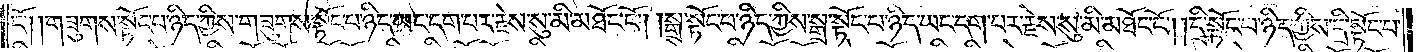ངོ༌། །གཟུགས་སྟོང་པ་ཉིད་ཀྱིས་གཟུགས་སྟོང་པ་ཉིད་ཡང་དག་པར་རྗེས་སུ་མི་མཐོང་ངོ༌། །སྒྲ་སྟོང་པ་ཉིད་ཀྱིས་སྒྲ་སྟོང་པ་ཉིད་ཡང་དག་པར་རྗེས་སུ་མི་མཐོང་ངོ༌། །དྲི་སྟོང་པ་ཉིད་ཀྱིས་དྲི་སྟོང་པ་
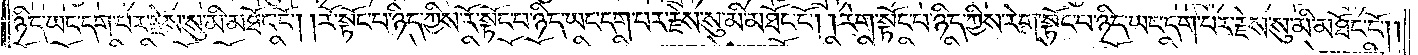ཉིད་ཡང་དག་པར་རྗེས་སུ་མི་མཐོང་ངོ༌། །རོ་སྟོང་པ་ཉིད་ཀྱིས་རོ་སྟོང་པ་ཉིད་ཡང་དག་པར་རྗེས་སུ་མི་མཐོང་ངོ༌། །རེག་སྟོང་པ་ཉིད་ཀྱིས་རེག་སྟོང་པ་ཉིད་ཡང་དག་པར་རྗེས་སུ་མི་མཐོང་ངོ༌། །
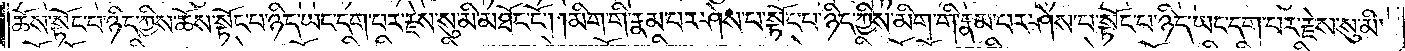ཆོས་སྟོང་པ་ཉིད་ཀྱིས་ཆོས་སྟོང་པ་ཉིད་ཡང་དག་པར་རྗེས་སུ་མི་མཐོང་ངོ༌། །མིག་གི་རྣམ་པར་ཤེས་པ་སྟོང་པ་ཉིད་ཀྱིས་མིག་གི་རྣམ་པར་ཤེས་པ་སྟོང་པ་ཉིད་ཡང་དག་པར་རྗེས་སུ་མི་
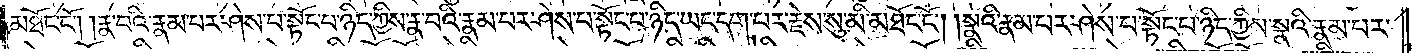མཐོང་ངོ༌། །རྣ་བའི་རྣམ་པར་ཤེས་པ་སྟོང་པ་ཉིད་ཀྱིས་རྣ་བའི་རྣམ་པར་ཤེས་པ་སྟོང་པ་ཉིད་ཡང་དག་པར་རྗེས་སུ་མི་མཐོང་ངོ༌། །སྣའི་རྣམ་པར་ཤེས་པ་སྟོང་པ་ཉིད་ཀྱིས་སྣའི་རྣམ་པར་
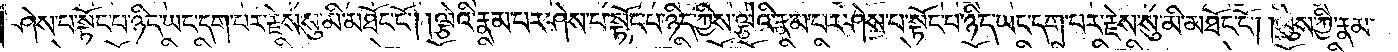ཤེས་པ་སྟོང་པ་ཉིད་ཡང་དག་པར་རྗེས་སུ་མི་མཐོང་ངོ༌། །ལྕེའི་རྣམ་པར་ཤེས་པ་སྟོང་པ་ཉིད་ཀྱིས་ལྕེའི་རྣམ་པར་ཤེས་པ་སྟོང་པ་ཉིད་ཡང་དག་པར་རྗེས་སུ་མི་མཐོང་ངོ༌། །ལུས་ཀྱི་རྣམ་
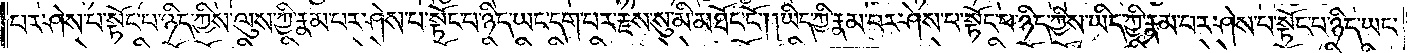པར་ཤེས་པ་སྟོང་པ་ཉིད་ཀྱིས་ལུས་ཀྱི་རྣམ་པར་ཤེས་པ་སྟོང་པ་ཉིད་ཡང་དག་པར་རྗེས་སུ་མི་མཐོང་ངོ༌། །ཡིད་ཀྱི་རྣམ་པར་ཤེས་པ་སྟོང་པ་ཉིད་ཀྱིས་ཡིད་ཀྱི་རྣམ་པར་ཤེས་པ་སྟོང་པ་ཉིད་ཡང་
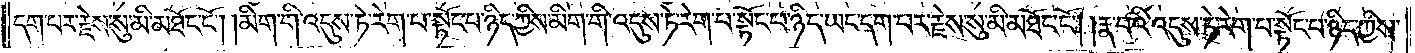དག་པར་རྗེས་སུ་མི་མཐོང་ངོ༌། །མིག་གི་འདུས་ཏེ་རེག་པ་སྟོང་པ་ཉིད་ཀྱིས་མིག་གི་འདུས་ཏེ་རེག་པ་སྟོང་པ་ཉིད་ཡང་དག་པར་རྗེས་སུ་མི་མཐོང་ངོ༌། །རྣ་བའི་འདུས་ཏེ་རེག་པ་སྟོང་པ་ཉིད་ཀྱིས་
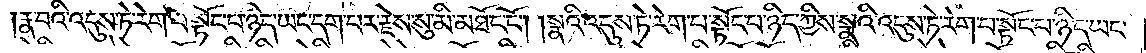རྣ་བའི་འདུས་ཏེ་རེག་པ་སྟོང་པ་ཉིད་ཡང་དག་པར་རྗེས་སུ་མི་མཐོང་ངོ༌། །སྣའི་འདུས་ཏེ་རེག་པ་སྟོང་པ་ཉིད་ཀྱིས་སྣའི་འདུས་ཏེ་རེག་པ་སྟོང་པ་ཉིད་ཡང་
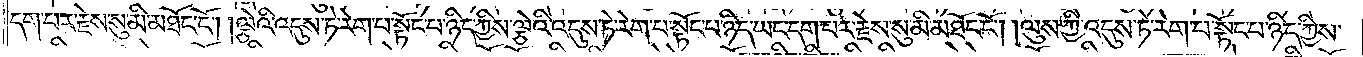དག་པར་རྗེས་སུ་མི་མཐོང་ངོ༌། །ལྕེའི་འདུས་ཏེ་རེག་པ་སྟོང་པ་ཉིད་ཀྱིས་ལྕེའི་འདུས་ཏེ་རེག་པ་སྟོང་པ་ཉིད་ཡང་དག་པར་རྗེས་སུ་མི་མཐོང་ངོ༌། །ལུས་ཀྱི་འདུས་ཏེ་རེག་པ་སྟོང་པ་ཉིད་ཀྱིས་
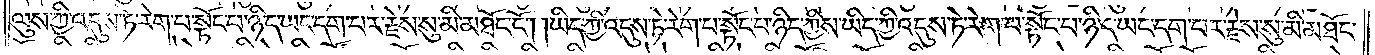ལུས་ཀྱི་འདུས་ཏེ་རེག་པ་སྟོང་པ་ཉིད་ཡང་དག་པར་རྗེས་སུ་མི་མཐོང་ངོ༌། །ཡིད་ཀྱི་འདུས་ཏེ་རེག་པ་སྟོང་པ་ཉིད་ཀྱིས་ཡིད་ཀྱི་འདུས་ཏེ་རེག་པ་སྟོང་པ་ཉིད་ཡང་དག་པར་རྗེས་སུ་མི་མཐོང་
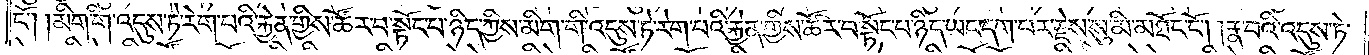ངོ༌། །མིག་གི་འདུས་ཏེ་རེག་པའི་རྐྱེན་གྱིས་ཚོར་བ་སྟོང་པ་ཉིད་ཀྱིས་མིག་གི་འདུས་ཏེ་རེག་པའི་རྐྱེན་གྱིས་ཚོར་བ་སྟོང་པ་ཉིད་ཡང་དག་པར་རྗེས་སུ་མི་མཐོང་ངོ༌། །རྣ་བའི་འདུས་ཏེ་
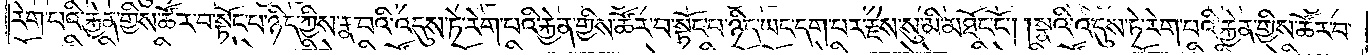རེག་པའི་རྐྱེན་གྱིས་ཚོར་བ་སྟོང་པ་ཉིད་ཀྱིས་རྣ་བའི་འདུས་ཏེ་རེག་པའི་རྐྱེན་གྱིས་ཚོར་བ་སྟོང་པ་ཉིད་ཡང་དག་པར་རྗེས་སུ་མི་མཐོང་ངོ༌། །སྣའི་འདུས་ཏེ་རེག་པའི་རྐྱེན་གྱིས་ཚོར་བ་
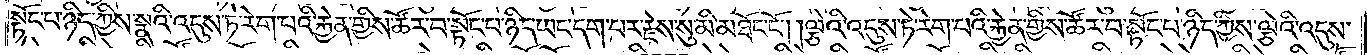སྟོང་པ་ཉིད་ཀྱིས་སྣའི་འདུས་ཏེ་རེག་པའི་རྐྱེན་གྱིས་ཚོར་བ་སྟོང་པ་ཉིད་ཡང་དག་པར་རྗེས་སུ་མི་མཐོང་ངོ༌། །ལྕེའི་འདུས་ཏེ་རེག་པའི་རྐྱེན་གྱིས་ཚོར་བ་སྟོང་པ་ཉིད་ཀྱིས་ལྕེའི་འདུས་
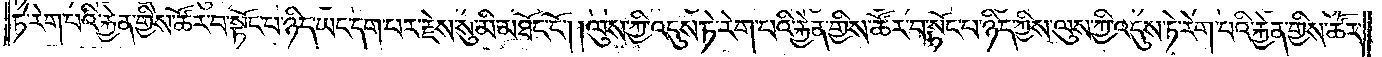ཏེ་རེག་པའི་རྐྱེན་གྱིས་ཚོར་བ་སྟོང་པ་ཉིད་ཡང་དག་པར་རྗེས་སུ་མི་མཐོང་ངོ༌། །ལུས་ཀྱི་འདུས་ཏེ་རེག་པའི་རྐྱེན་གྱིས་ཚོར་བ་སྟོང་པ་ཉིད་ཀྱིས་ལུས་ཀྱི་འདུས་ཏེ་རེག་པའི་རྐྱེན་གྱིས་ཚོར་
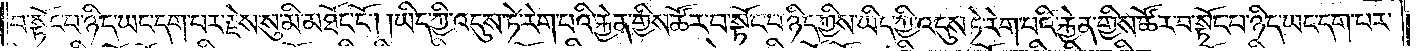བ་སྟོང་པ་ཉིད་ཡང་དག་པར་རྗེས་སུ་མི་མཐོང་ངོ༌། །ཡིད་ཀྱི་འདུས་ཏེ་རེག་པའི་རྐྱེན་གྱིས་ཚོར་བ་སྟོང་པ་ཉིད་ཀྱིས་ཡིད་ཀྱི་འདུས་ཏེ་རེག་པའི་རྐྱེན་གྱིས་ཚོར་བ་སྟོང་པ་ཉིད་ཡང་དག་པར་
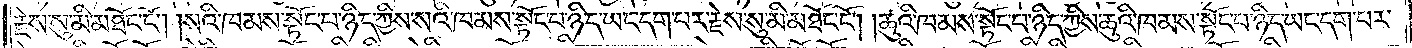རྗེས་སུ་མི་མཐོང་ངོ༌། །སའི་ཁམས་སྟོང་པ་ཉིད་ཀྱིས་སའི་ཁམས་སྟོང་པ་ཉིད་ཡང་དག་པར་རྗེས་སུ་མི་མཐོང་ངོ༌། །ཆུའི་ཁམས་སྟོང་པ་ཉིད་ཀྱིས་ཆུའི་ཁམས་སྟོང་པ་ཉིད་ཡང་དག་པར་
